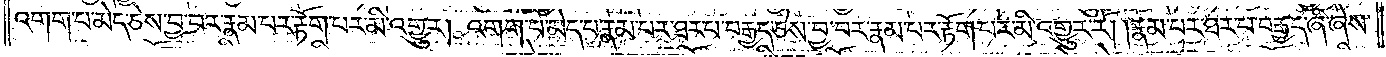འགག་པ་མེད་ཅེས་བྱ་བར་རྣམ་པར་རྟོག་པར་མི་འགྱུར། འགག་པ་མེད་པ་རྣམ་པར་ཐར་པ་བརྒྱད་ཅེས་བྱ་བར་རྣམ་པར་རྟོག་པར་མི་འགྱུར་རོ། །རྣམ་པར་ཐར་པ་བརྒྱད་ཞི་ཞེས་
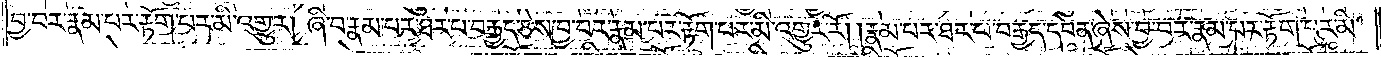བྱ་བར་རྣམ་པར་རྟོག་པར་མི་འགྱུར། ཞི་བ་རྣམ་པར་ཐར་པ་བརྒྱད་ཅེས་བྱ་བར་རྣམ་པར་རྟོག་པར་མི་འགྱུར་རོ། །རྣམ་པར་ཐར་པ་བརྒྱད་དབེན་ཞེས་བྱ་བར་རྣམ་པར་རྟོག་པར་མི་
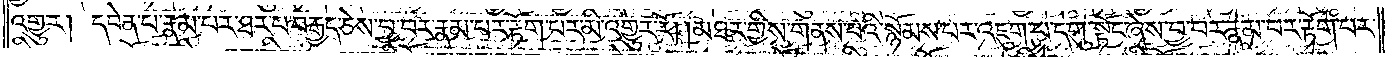འགྱུར། དབེན་པ་རྣམ་པར་ཐར་པ་བརྒྱད་ཅེས་བྱ་བར་རྣམ་པར་རྟོག་པར་མི་འགྱུར་རོ། །མཐར་གྱིས་གནས་པའི་སྙོམས་པར་འཇུག་པ་དགུ་སྟོང་ཞེས་བྱ་བར་རྣམ་པར་རྟོག་པར་
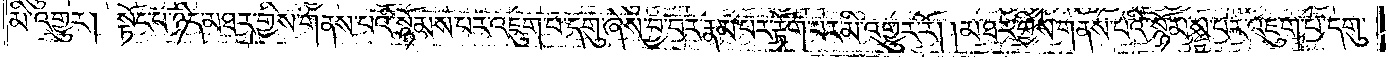མི་འགྱུར། སྟོང་པ་ཉིད་མཐར་གྱིས་གནས་པའི་སྙོམས་པར་འཇུག་པ་དགུ་ཞེས་བྱ་བར་རྣམ་པར་རྟོག་པར་མི་འགྱུར་རོ། །མཐར་གྱིས་གནས་པའི་སྙོམས་པར་འཇུག་པ་དགུ་
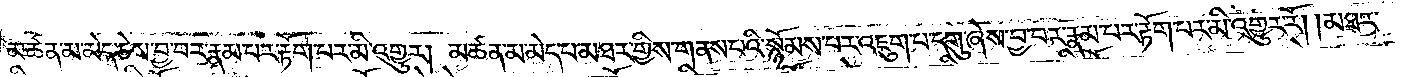མཚན་མ་མེད་ཅེས་བྱ་བར་རྣམ་པར་རྟོག་པར་མི་འགྱུར། མཚན་མ་མེད་པ་མཐར་གྱིས་གནས་པའི་སྙོམས་པར་འཇུག་པ་དགུ་ཞེས་བྱ་བར་རྣམ་པར་རྟོག་པར་མི་འགྱུར་རོ། །མཐར་
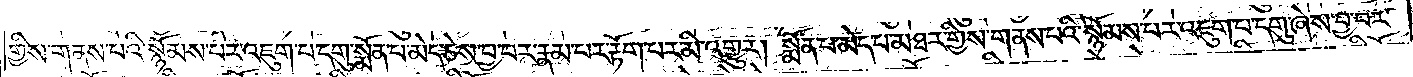གྱིས་གནས་པའི་སྙོམས་པར་འཇུག་པ་དགུ་སྨོན་པ་མེད་ཅེས་བྱ་བར་རྣམ་པར་རྟོག་པར་མི་འགྱུར། སྨོན་པ་མེད་པ་མཐར་གྱིས་གནས་པའི་སྙོམས་པར་འཇུག་པ་དགུ་ཞེས་བྱ་བར་
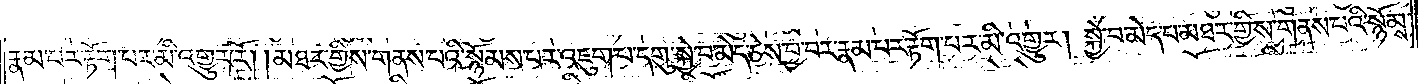རྣམ་པར་རྟོག་པར་མི་འགྱུར་རོ༑ ༑མཐར་གྱིས་གནས་པའི་སྙོམས་པར་འཇུག་པ་དགུ་སྐྱེ་བ་མེད་ཅེས་བྱ་བར་རྣམ་པར་རྟོག་པར་མི་འགྱུར། སྐྱེ་བ་མེད་པ་མཐར་གྱིས་གནས་པའི་སྙོམས་
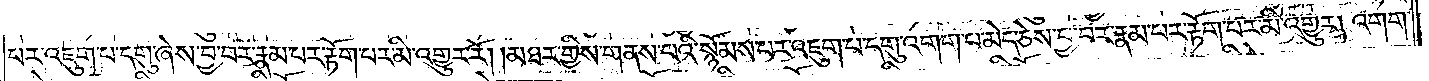པར་འཇུག་པ་དགུ་ཞེས་བྱ་བར་རྣམ་པར་རྟོག་པར་མི་འགྱུར་རོ། །མཐར་གྱིས་གནས་པའི་སྙོམས་པར་འཇུག་པ་དགུ་འགག་པ་མེད་ཅེས་བྱ་བར་རྣམ་པར་རྟོག་པར་མི་འགྱུར། འགག་
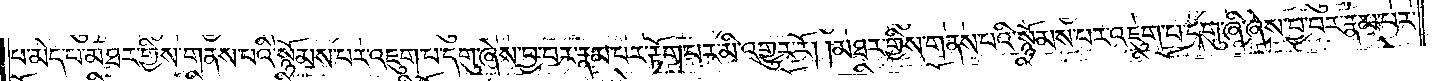པ་མེད་པ་མཐར་གྱིས་གནས་པའི་སྙོམས་པར་འཇུག་པ་དགུ་ཞེས་བྱ་བར་རྣམ་པར་རྟོག་པར་མི་འགྱུར་རོ། །མཐར་གྱིས་གནས་པའི་སྙོམས་པར་འཇུག་པ་དགུ་ཞི་ཞེས་བྱ་བར་རྣམ་པར་
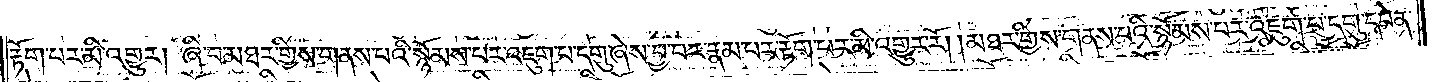རྟོག་པར་མི་འགྱུར། ཞི་བ་མཐར་གྱིས་གནས་པའི་སྙོམས་པར་འཇུག་པ་དགུ་ཞེས་བྱ་བར་རྣམ་པར་རྟོག་པར་མི་འགྱུར་རོ། །མཐར་གྱིས་གནས་པའི་སྙོམས་པར་འཇུག་པ་དགུ་དབེན་
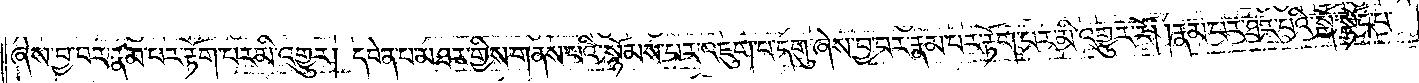ཞེས་བྱ་བར་རྣམ་པར་རྟོག་པར་མི་འགྱུར། དབེན་པ་མཐར་གྱིས་གནས་པའི་སྙོམས་པར་འཇུག་པ་དགུ་ཞེས་བྱ་བར་རྣམ་པར་རྟོག་པར་མི་འགྱུར་རོ། །རྣམ་པར་ཐར་པའི་སྒོ་སྟོང་པ་
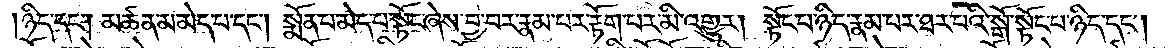ཉིད་དང༌། མཚན་མ་མེད་པ་དང༌། སྨོན་པ་མེད་པ་སྟོང་ཞེས་བྱ་བར་རྣམ་པར་རྟོག་པར་མི་འགྱུར། སྟོང་པ་ཉིད་རྣམ་པར་ཐར་པའི་སྒོ་སྟོང་པ་ཉིད་དང༌།
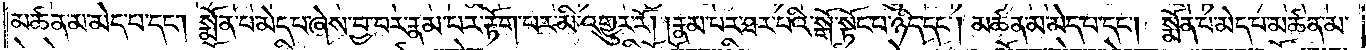མཚན་མ་མེད་པ་དང༌། སྨོན་པ་མེད་པ་ཞེས་བྱ་བར་རྣམ་པར་རྟོག་པར་མི་འགྱུར་རོ། །རྣམ་པར་ཐར་པའི་སྒོ་སྟོང་པ་ཉིད་དང༌། མཚན་མ་མེད་པ་དང༌། སྨོན་པ་མེད་པ་མཚན་མ་
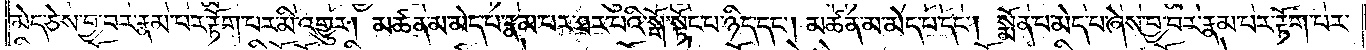མེད་ཅེས་བྱ་བར་རྣམ་པར་རྟོག་པར་མི་འགྱུར། མཚན་མ་མེད་པ་རྣམ་པར་ཐར་པའི་སྒོ་སྟོང་པ་ཉིད་དང༌། མཚན་མ་མེད་པ་དང༌། སྨོན་པ་མེད་པ་ཞེས་བྱ་བར་རྣམ་པར་རྟོག་པར་
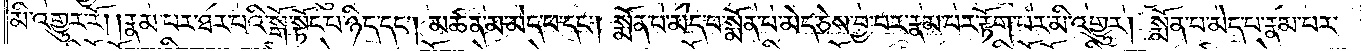མི་འགྱུར་རོ། །རྣམ་པར་ཐར་པའི་སྒོ་སྟོང་པ་ཉིད་དང༌། མཚན་མ་མེད་པ་དང༌། སྨོན་པ་མེད་པ་སྨོན་པ་མེད་ཅེས་བྱ་བར་རྣམ་པར་རྟོག་པར་མི་འགྱུར། སྨོན་པ་མེད་པ་རྣམ་པར་
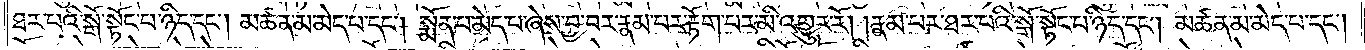ཐར་པའི་སྒོ་སྟོང་པ་ཉིད་དང༌། མཚན་མ་མེད་པ་དང༌། སྨོན་པ་མེད་པ་ཞེས་བྱ་བར་རྣམ་པར་རྟོག་པར་མི་འགྱུར་རོ། །རྣམ་པར་ཐར་པའི་སྒོ་སྟོང་པ་ཉིད་དང༌། མཚན་མ་མེད་པ་དང༌།
